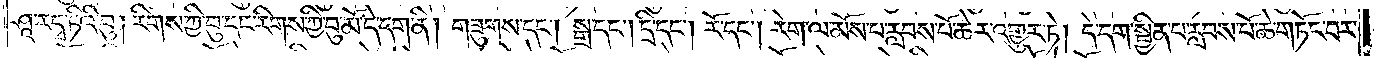ཤཱ་རདྭ་ཏིའི་བུ། རིགས་ཀྱི་བུ་དང་རིགས་ཀྱི་བུ་མོ་དེ་དག་ནི། གཟུགས་དང༌། སྒྲ་དང༌། དྲི་དང༌། རོ་དང༌། རེག་ལ་མོས་པ་རློབས་པོ་ཆེར་འགྱུར་ཏེ། དེ་དག་སྦྱིན་པ་རླབས་པོ་ཆེ་གཏོང་བར་
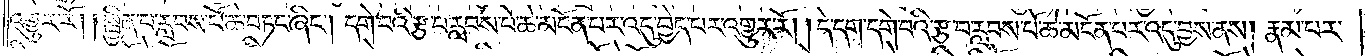འགྱུར་རོ། །སྦྱིན་པ་རླབས་པོ་ཆེ་གཏང་ཞིང༌། དགེ་བའི་རྩ་བ་རླབས་པོ་ཆེ་མངོན་པར་འདུ་བྱེད་པར་འགྱུར་རོ། །དེ་དག་དགེ་བའི་རྩ་བ་རླབས་པོ་ཆེ་མངོན་པར་འདུ་བྱས་ནས། རྣམ་པར་
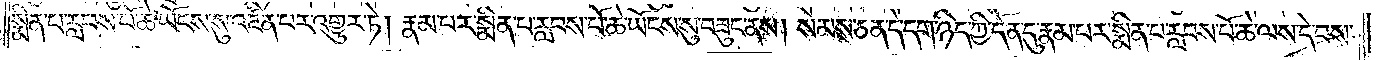སྨིན་པ་རླབས་པོ་ཆེ་ཡོངས་སུ་འཛིན་པར་འགྱུར་ཏེ། རྣམ་པར་སྨིན་པ་རླབས་པོ་ཆེ་ཡོངས་སུ་བཟུང་ནས། སེམས་ཅན་དེ་དག་ཉིད་ཀྱི་དོན་དུ་རྣམ་པར་སྨིན་པ་རླབས་པོ་ཆེ་ལས་དེ་བས་
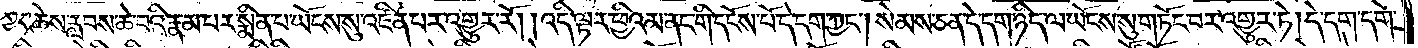ཀྱང་ཆེས་རླབས་ཆེ་བའི་རྣམ་པར་སྨིན་པ་ཡོངས་སུ་འཛིན་པར་འགྱུར་རོ། །འདི་ལྟར་ཕྱིའམ་ནང་གི་དངོས་པོ་དེ་དག་ཀྱང༌། སེམས་ཅན་དེ་དག་ཉིད་ལ་ཡོངས་སུ་གཏོང་བར་འགྱུར་ཏེ། དེ་དག་དགེ་
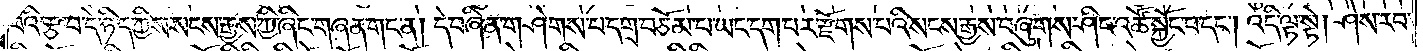བའི་རྩ་བ་དེ་ཉིད་ཀྱིས་སངས་རྒྱས་ཀྱི་ཞིང་གཞན་གང་ན། དེ་བཞིན་གཤེགས་པ་དགྲ་བཅོམ་པ་ཡང་དག་པར་རྫོགས་པའི་སངས་རྒྱས་བཞུགས་ཤིང་འཚོ་སྐྱོང་བ་དང༌། འདི་ལྟ་སྟེ། ཤེས་རབ་
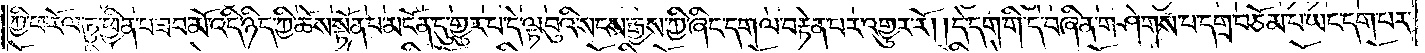ཀྱི་ཕ་རོལ་ཏུ་ཕྱིན་པ་ཟབ་མོ་འདི་ཉིད་ཀྱི་ཆོས་སྟོན་པ་མངོན་དུ་འགྱུར་པ་དེ་ལྟ་བུའི་སངས་རྒྱས་ཀྱི་ཞིང་དག་ལ་བརྟེན་པར་འགྱུར་རོ། །དེ་དག་གི་དེ་ཞིན་གཤེགས་པ་དགྲ་བཅོམ་པ་ཡང་དག་པར་
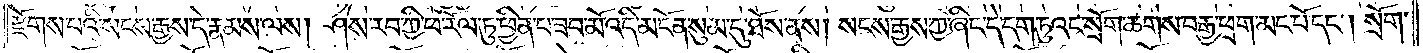རྫོགས་པའི་སངས་རྒྱས་དེ་རྣམས་ལས། ཤེས་རབ་ཀྱི་ཕ་རོལ་ཏུ་ཕྱིན་པ་ཟབ་མོ་འདི་མངོན་སུམ་དུ་ཐོས་ནས། སངས་རྒྱས་ཀྱི་ཞིང་དེ་དག་ཏུའང་སོག་ཆགས་བརྒྱ་ཕྲག་མང་པོ་དང༌། སྲོག་
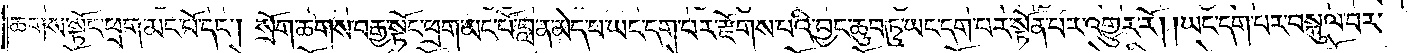ཆགས་སྟོང་ཕྲག་མང་བོ་དང༌། སྲོག་ཆགས་བརྒྱ་སྟོང་ཕྲག་མང་པོ་བླ་ན་མེད་པ་ཡང་དག་པར་རྫོགས་པའི་བྱང་ཆུབ་ཏུ་ཡང་དག་པར་སྟེན་པར་འགྱུར་རོ། །ཡང་དག་པར་བསྐུལ་བར་
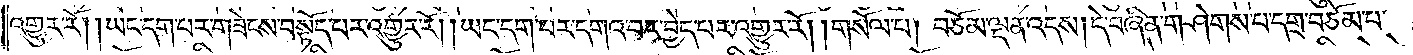འགྱུར་རོ། །ཡང་དག་པར་གཟེངས་བསྟོད་པར་འགྱུར་རོ། །ཡང་དག་པར་དགའ་བར་བྱེད་པར་འགྱུར་རོ། །གསོལ་པ། བཅོམ་ལྡན་འདས། དེ་བཞིན་གཤེགས་པ་དགྲ་བཅོམ་པ་
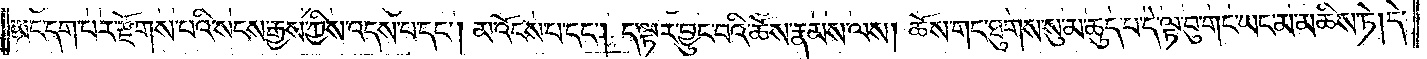ཡང་དག་པར་རྫོགས་པའི་སངས་རྒྱས་ཀྱིས་འདས་པ་དང༌། མ་འོངས་པ་དང༌། ད་ལྟར་བྱུང་བའི་ཆོས་རྣམས་ལས། ཆོས་གང་ཐུགས་སུ་མ་ཆུད་པ་དེ་ལྟ་བུ་གང་ཡང་མ་མཆིས་ཏེ། དེ་
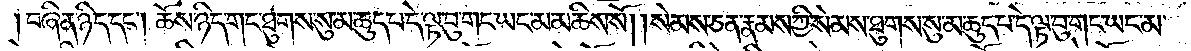བཞིན་ཉིད་དང༌། ཆོས་ཉིད་གང་ཐུགས་སུ་མ་ཆུད་པ་དེ་ལྟ་བུ་གང་ཡང་མ་མཆིས་སོ། །སེམས་ཅན་རྣམས་ཀྱི་སེམས་ཐུགས་སུ་མ་ཆུད་པ་དེ་ལྟ་བུ་གང་ཡང་མ་
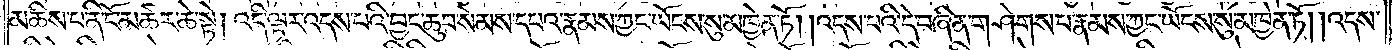མཆིས་པ་ནི་ངོ་མཚར་ཆེ་སྟེ། འདི་ལྟར་འདས་པའི་བྱང་ཆུབ་སེམས་དཔའ་རྣམས་ཀྱང་ཡོངས་སུ་མཁྱེན་ཏོ། །འདས་པའི་དེ་བཞིན་གཤེགས་པ་རྣམས་ཀྱང་ཡོངས་སུ་མཁྱེན་ཏེ། །འདས་
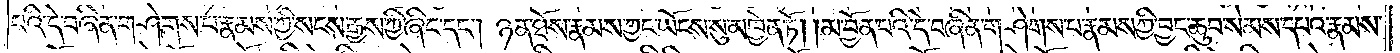པའི་དེ་བཞིན་གཤེགས་པ་རྣམས་ཀྱི་སངས་རྒྱས་ཀྱི་ཞིང་དང༌། ཉན་ཐོས་རྣམས་ཀྱང་ཡོངས་སུ་མཁྱེན་ཏོ། །མ་བྱོན་པའི་དེ་བཞིན་གཤེགས་པ་རྣམས་ཀྱི་བྱང་ཆུབ་སེམས་དཔའ་རྣམས་
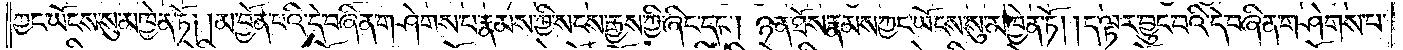ཀྱང་ཡོངས་སུ་མཁྱེན་ཏོ། །མ་བྱོན་པའི་དེ་བཞིན་གཤེགས་པ་རྣམས་ཀྱི་སངས་རྒྱས་ཀྱི་ཞིང་དང༌། ཉན་ཐོས་རྣམས་ཀྱང་ཡོངས་སུ་མཁྱེན་ཏོ། །ད་ལྟར་བྱུང་བའི་དེ་བཞིན་གཤེགས་པ་
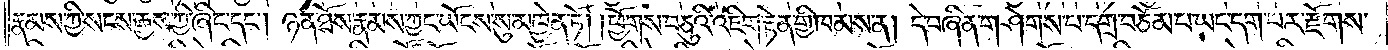རྣམས་ཀྱི་སངས་རྒྱས་ཀྱི་ཞིང་དང༌། ཉན་ཐོས་རྣམས་ཀྱང་ཡོངས་སུ་མཁྱེན་ཏོ། །ཕྱོགས་བཅུའི་འཇིག་རྟེན་གྱི་ཁམས་ན། དེ་བཞིན་གཤེགས་པ་དགྲ་བཅོམ་པ་ཡང་དག་པར་རྫོགས་
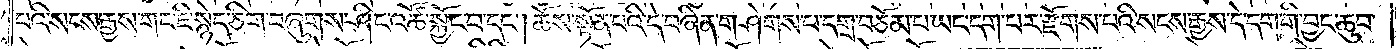པའི་སངས་རྒྱས་གང་ཇི་སྙེད་ཅིག་བཞུགས་ཤིང་འཚོ་སྐྱོང་བ་དང༌། ཆོས་སྟོན་པའི་དེ་བཞིན་གཤེགས་པ་དགྲ་བཅོམ་པ་ཡང་དག་པར་རྫོགས་པའི་སངས་རྒྱས་དེ་དག་གི་བྱང་ཆུབ་
